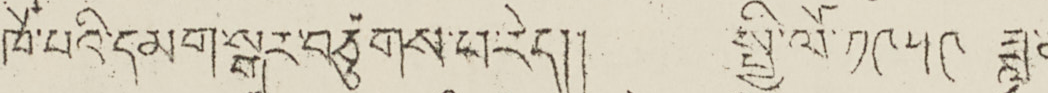ཁོ་པའི་དམག་སྒར་བཙུགས་པ་རེད།། སྤྱི་ལོ་ ༡༩༥༩ ཟླ་
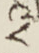༨
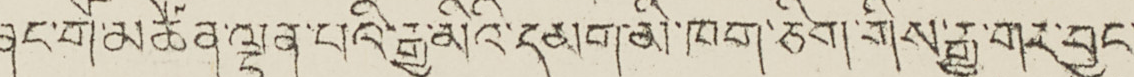ནང་གོ་མཚོན་ལྡན་པའི་རྒྱ་མིའི་དམག་མི་ཁག་ཅིག་གིས་རྒྱ་གར་བྱང་
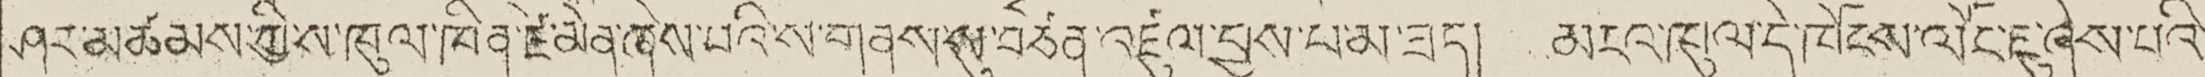ཤར་མཚམས་ཀྱི་ས་ཁུལ་ཁིན་ཛེ་མེན་ཞེས་པའི་ས་གནས་སུ་བཙན་འཛུལ་བྱས་པ་མ་ཟད། མངའ་ཁུལ་དེ་ཁོངས་ལོང་ཇུ་ཞེས་པའི་
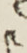༩
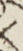༨
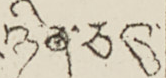ཉིན་ཅའུ་
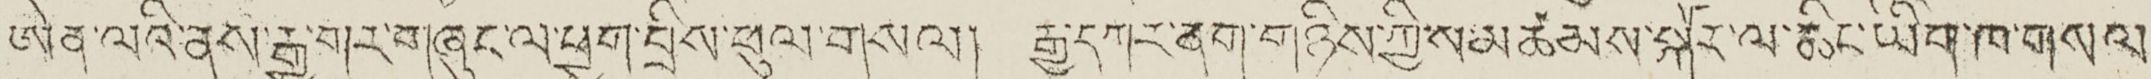ཨེན་ལའི་ནས་རྒྱ་གར་གཞུང་པ་ཕྱག་བྲིས་ཕུལ་གསལ། རྒྱ་དཀར་ནག་གཉིས་ཀྱི་ས་མཚམས་སྐོར་ལ་ཆིང་ཡིག་ཁ་གསལ་
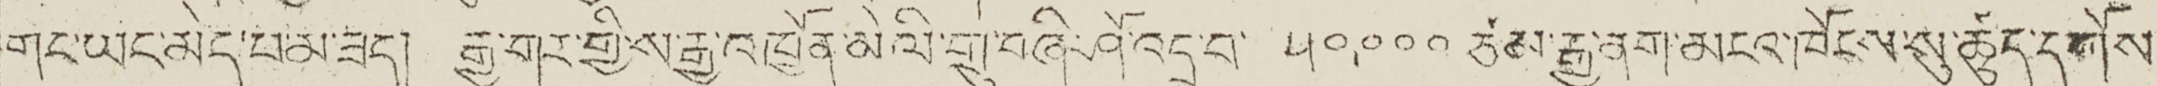གང་ཡང་མེད་པ་མ་ཟད། རྒྱ་གར་གྱི་ས་རྒྱ་འཁྱོན་མེ་ལི་གྲུ་བཞི་ཤི་འདྲ་བ་ ༥༠,༠༠༠ ཙམ་རྒྱ་ནག་མངའ་ཁོངས་སུ་ཚུད་དགོས་
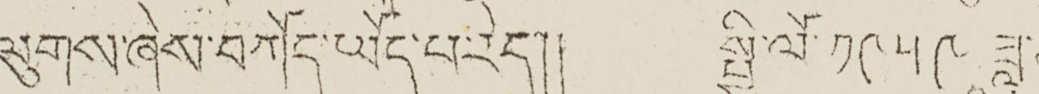ལུགས་ཞེས་བཀོད་ཡོད་པས་རེད།། སྤྱི་ལོ་ ༡༩༥༩ ཟླ་
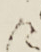༩
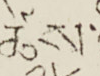ཚེས་
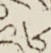༢༦
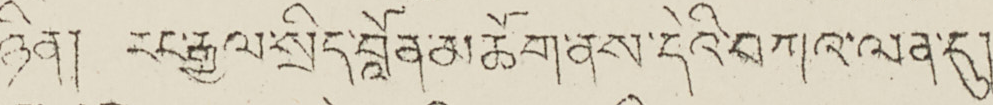ཉིན། རང་རྒྱལ་སྲིད་བློན་མཆོག་ནས་དེའི་བཀའ་ལན་དུ།
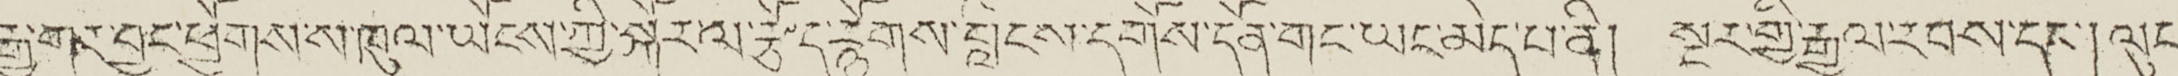རྒྱ་གར་བྱང་ཕྱོགས་ས་ཁུལ་ཡོངས་ཀྱི་སྐོར་ལ་རྩོད་རྙོགས་བླངས་དགོས་དོན་གང་ཡང་མེད་པ་ནི། སྔར་གྱི་རྒྱལ་རབས་དང་། ལུང་
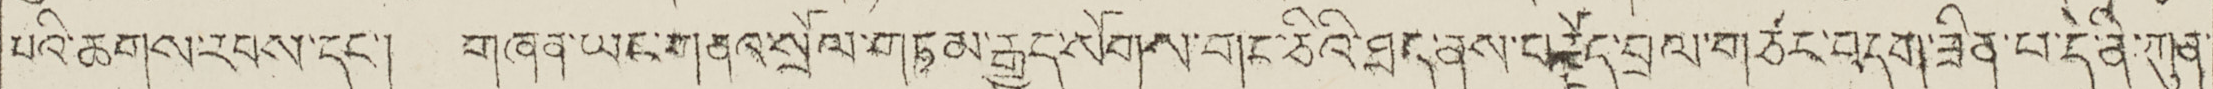པའི་ཆགས་རབས་དང་། གཞན་ཡང་གནའ་སྲོལ་གཏམ་རྒྱུད་སོགས་གང་ཅིའི་ཐད་ནས་བརྗེད་བྲལ་གཙང་བདག་ཟིན་པ་དེ་ནི་ཀུན་
